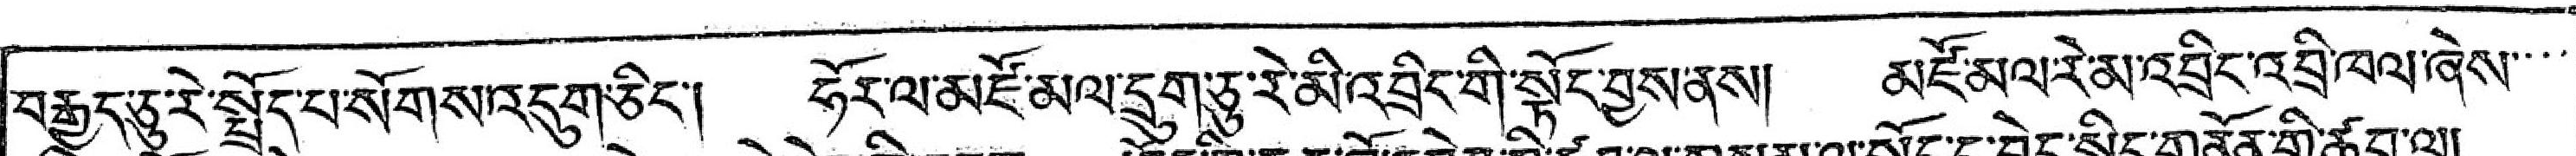བརྒྱད་ཅུ་རེ་སྤྲོད་པ་སོགས་འདུག་ཅིང་། ཧོར་ལ་མཛོ་མལ་དྲུག་ཅུ་རེ་མི་འབྲིང་གི་སྟོང་བྱས་ནས། མཛོ་མལ་རེ་མ་འབྲིང་ཁལ་ཞེས་་་་
